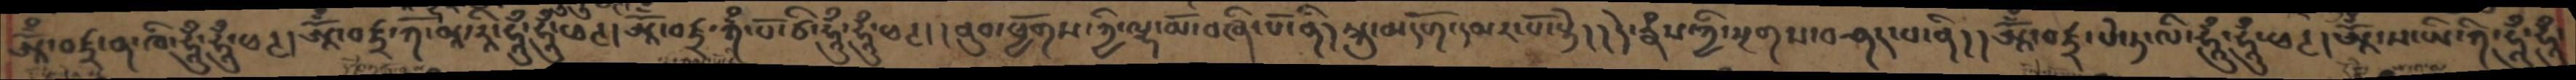ཨཱོྃ་བཛྲ་ན་ཁི་ཧཱུྃ་ཧཱུྃ་ཕཊ། ཨཱོྃ་བཛྲ་ཀོ་མཱ་རཱི་ཧཱུྃ་ཧཱུྃ་ཕཊ། ཨཱོྃ་བཛྲ་ཀྃ་པོ་ཙི་ཧཱུྃ་ཧཱུྃ་ཕཊ། །ནུབ་ཕྱོགས་ཀྱི་ལྷ་མོ་བཞི་པོ་ནི། སྐུ་མདོག་དམར་པོ་སྟེ། །དེ་རྣཾས་ཀྱི་སྔགས་བཤད་པ་ནི། །ཨཱོྃ་བཛྲ་པེ་ཏ་ལི་ཧཱུྃ་ཧཱུྃ་ཕཊ། ཨཱོྃ་ས་ཡི་ཀི་ཧཱུྃ་ཧཱུྃ་
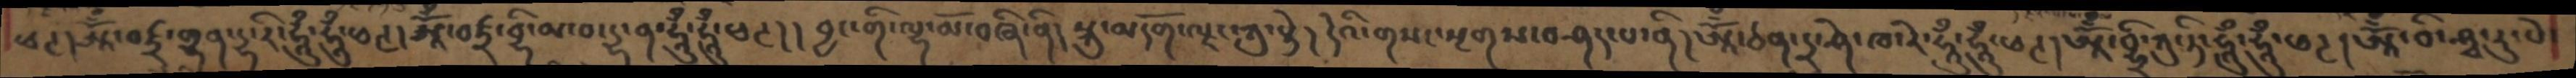ཕཊ། ཨཱོྃ་བཛྲ་གྷན་དྷ་རི་ཧཱུྃ་ཧཱུྃ་ཕཊ། ཨཱོྃ་བཛྲ་བྷི་མ་བ་དྷ་ན་ཧཱུྃ་ཧཱུྃ་ཕཊ། །བྱང་གི་ལྷ་མོ་བཞི་ནི། སྐུ་མདོག་ལྗང་ཀུ་སྟེ། དེའི་གསང་སྔགས་བཤད་པ་ནི། ཨཱོྃ་ཙན་དྲ་ཤེ་ཁ་རེ་ཧཱུྃ་ཧཱུྃ་ཕཊ། ཨཱོྃ་བྷྲི་ཀུ་ཏི་ཧཱུྃ་ཧཱུྃ་ཕཊ། ཨཱོྃ་བི་ཤྭ་རུ་པེ་
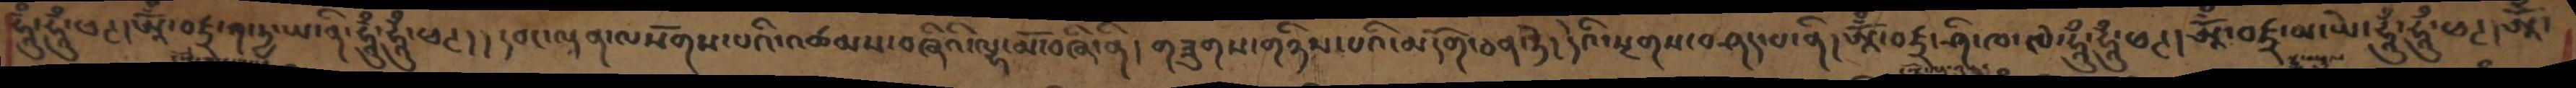ཧཱུྃ་ཧཱུྃ་ཕཊ། ཨཱོྃ་བཛྲ་ཀ་ཏྱ་ཡ་ནི་ཧཱུྃ་ཧཱུྃ་ཕཊ། །དབང་ལྡན་ལསོགས་པའི་འཚམས་བཞིའི་ལྷ་མོ་བཞི་ནི། གཟུགས་གཉིས་པའི་མདོག་ཅན་ཏེ། དེའི་སྔགས་བཤད་པ་ནི། ཨཱོྃ་བཛྲ་ཤི་ཁ་ཁེ་ཧཱུྃ་ཧཱུྃ་ཕཊ། ཨཱོྃ་བཛྲ་མ་ཡེ་ཧཱུྃ་ཧཱུྃ་ཕཊ། ཨཱོྃ་
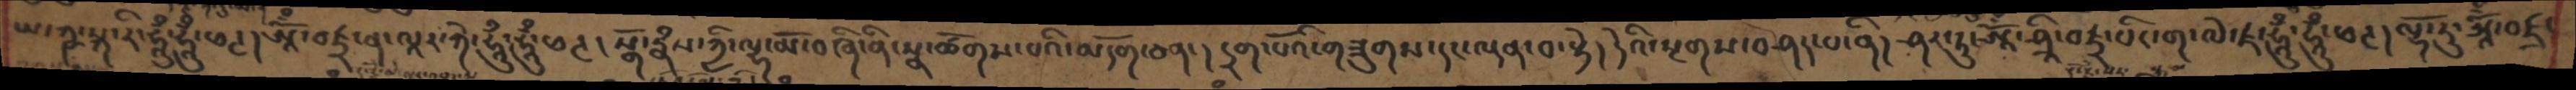ཡ་ཀྵ་སྐ་རི་ཧཱུྃ་ཧཱུྃ་ཕཊ། ཨཱོྃ་བཛྲ་ན་ལཱར་ཀེ་ཧཱུྃ་ཧཱུྃ་ཕཊ། སྒོ་རྣཾས་ཀྱི་ལྷ་མོ་བཞི་ནི་སྣ་ཚོགས་པའི་མདོག་ཅན། དྲག་པོའི་གཟུགས་དང་ལྡན་བ་སྟེ། དེའི་སྔགས་བཤད་པ་ནི། ཤར་ཏུ་ཨཱོྃ་ཤྲཱི་བཛྲ་སིང་ག་ལེ་ཛ་ཧཱུྃ་ཧཱུྃ་ཕཊ། ལྷོ་རུ་ཨཱོྃ་བཛྲ་
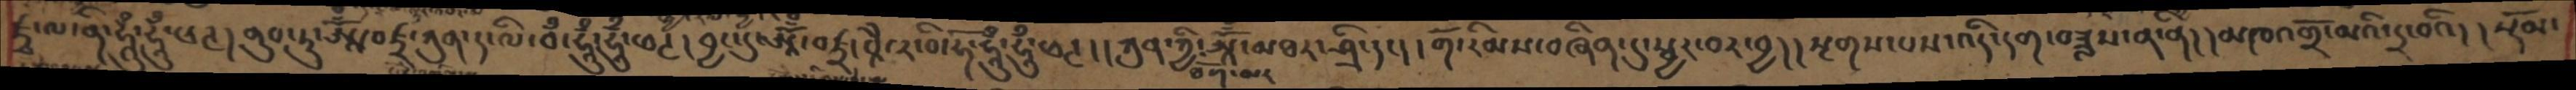ཛྭ་ལ་ནི་ཧཱུྃ་ཧཱུྃ་ཕཊ། ནུབ་ཏུ་ཨཱོྃ་བཛྲ་ཀུན་ད་ལི་བྃ་ཧཱུྃ་ཧཱུྃ་ཕཊ། བྱང་དུ་ཨཱོྃ་བཛྲ་བཱཻ་ར་བི་ཧོ་ཧཱུྃ་ཧཱུྃ་ཕཊ། ཀུན་ཀྱི་ཐོག་མ་ཨཱོྃ་མཐར་ཤྲི་དང། །གོ་རིམས་བཞིན་དུ་སྦྱར་བར་བྱ། །སྔགས་པས་འདི་དག་བཟླས་ན་ནི། །མཁའགྲོ་མའི་དྲ་བའི། །སྡོམ་
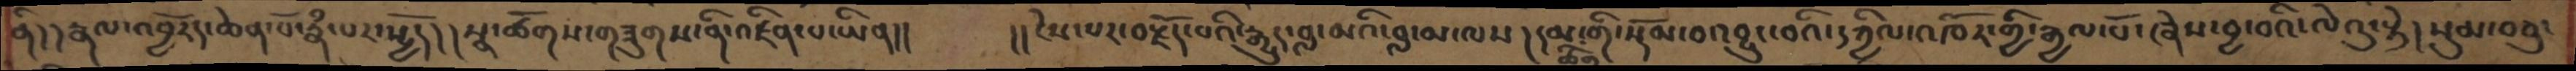ནི། །རྣལ་འབྱོརད་ཆེན་པོ་རྣཾ་པར་སྤྱོད། །སྣ་ཚོགས་གཟུགས་ནི་འཛིན་པ་ཡིན།།   །།ངེས་པར་བརྗོད་པའི་རྒྱུད་བླ་མའི་བླ་མ་ལས། དམ་ཚིག་གི་སྡོམ་བའབྱུང་བའི་དཀྱིལ་འཁོར་གྱི་རྒྱལ་པོ་ཞེས་བྱ་བའི་ལེའུ་སྟེ། སུམ་བཅུ་
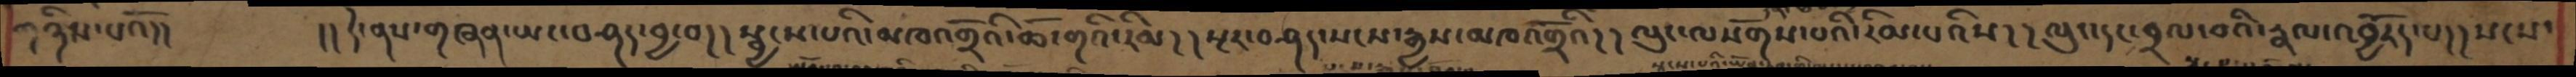གཉིས་པའོ།།   །།དེ་ནས་གཞན་ཡང་བཤད་བྱ་བ། །སྦྱངས་པའི་མཁའགྲོའི་ཆོ་གའི་རིམ། །སྔར་བཤད་སངས་རྒྱས་མཁའགྲོའི། །ལུང་ལསོགས་པའི་རིམ་པའིས། །ལུང་དང་བྲལ་བའི་རྣལ་འབྱོརད་པ། །སངས་
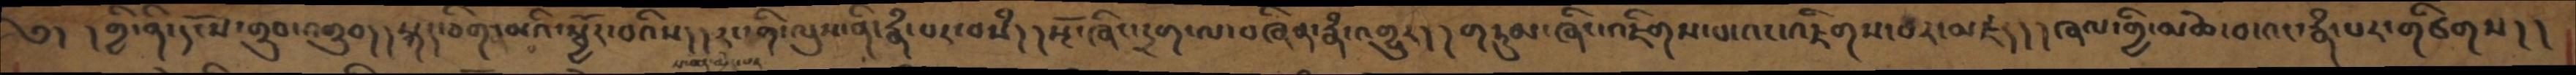༄། །གྱི་ནི་དངོས་གྲུབ་འགྲུབ། །སྐད་ཅིག་མའི་སྦྱོར་བའིས། །རང་གི་ལུས་ནི་རྣཾ་པར་བསཾ། །སྔོ་ཞིང་དྲག་ལ་བཞིན་རྣཾས་འགྱུར། །གཏུམ་ཞིང་འཇིགས་པ་འང་འཇིགས་པར་མཛད། །ཞལ་གྱི་མཆེ་བ་འང་རྣཾ་པར་གཙིགས། །
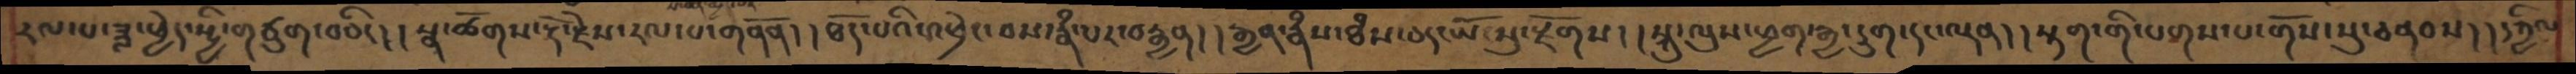རལ་པ་ཟླ་ཕྱེད་སྤྱི་གཙུག་བཅིང། །སྣ་ཚོགས་རྡོ་རྗེས་རལ་པ་གནོན། །ཐོད་པའི་འཕྲེང་བས་རྣཾ་པར་བརྒྱན། །རྒྱན་རྣཾས་ཐཾས་ཅད་ཡོངསུ་རྫོགས། །སྐུ་ལུས་ཕྱག་རྒྱ་དྲུག་དང་ལྡན། །སྟག་གི་པགས་པ་གོས་སུ་བནབས། །དཀྱིལ་
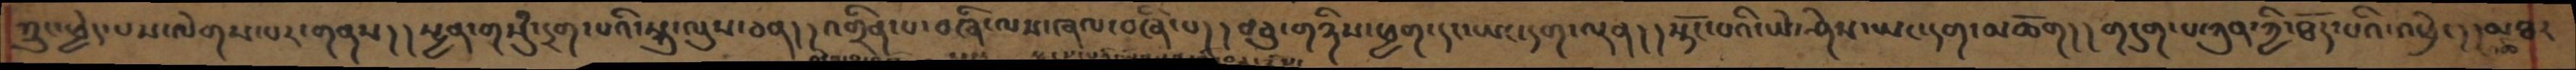ཀྲུང་ཕྱེད་པས་ལེགས་པར་གནས། །སྤྱན་གསུཾ་དྲག་པའི་སྐུ་ལུས་ཅན། །འགྲིན་པ་བཞི་ལས་ཞལ་བཞི་པ། །བཅུ་གཉིས་ཕྱག་དང་ཡང་དག་ལྡན། །སྟོང་པའི་ཡེ་ཤེས་ཡང་དག་མཆོག། །གདུག་པ་ཀུན་ཀྱི་ཐོད་པའི་འཕྲེང། །མཐར
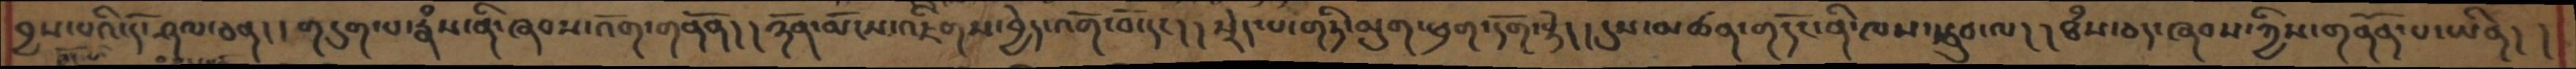བྱས་པའི་དོ་ཤལ་ཅན། །གདུག་པ་རྣཾས་ནི་ཞབས་འོག་གནོན། །ཉོན་མོངས་འཇིགས་བྱེད་འགོ་བོ་དང། །སྲེད་པ་གཏི་མུག་ཕྲག་དོག་སྟེ། །དུས་མཚན་གདོང་ནི་ཁས་སྦུབ་ལ། །ཐཾས་ཅད་ཞབས་ཀྱིས་གནོན་པ་ཡིན། །
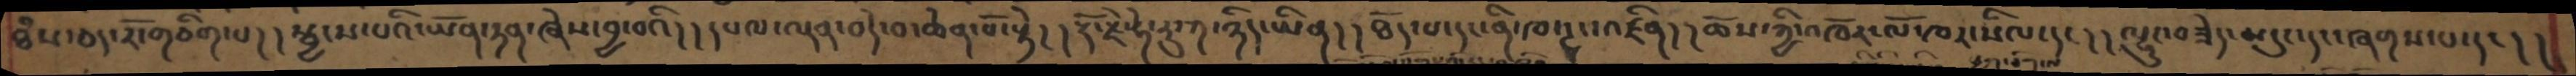ཐཾས་ཅད་རོ་གཅིག་པ། །སྦྱངས་པའི་ཡོན་ཏན་ཞེས་བྱ་བའི། །དཔལ་ལྡན་བདེ་བ་ཆེན་པོ་སྟེ། །རྡོ་རྗེ་ཧེ་རུ་ཀ་ཉིད་ཡིན། །ཐོད་པ་དང་ནི་ཁ་ཏྭང་འཛིན། །ཆོས་ཀྱི་འཁོར་ལོ་ཁར་སིལ་དང། །ལྷུང་བཟེད་མདུང་དང་ཞགས་པ་དང། །
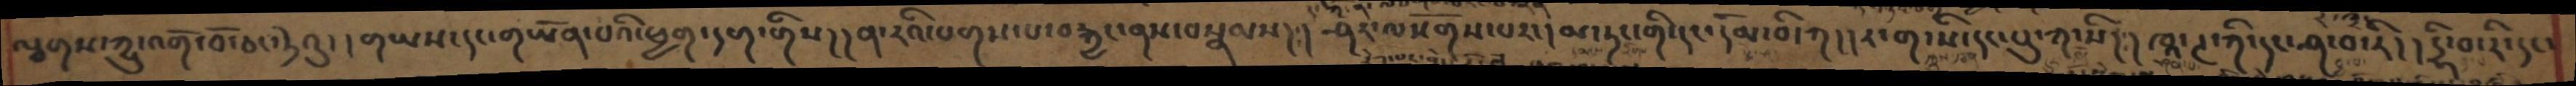ལྕགས་ཀྱུ་འགོ་བོ་ཅང་ཏེའུ། །གཡས་དང་གཡོན་པའི་ཕྱག་དག་གིས། །ན་རའི་པགས་པ་བརྐྱང་ནས་བསྣམས། །ཤར་ལསོགས་པར་།མ་ཏང་གི་དང་དོམ་བི་ཀ། །ར་ག་སི་དང་པུ་ཀ་སི། །ཁཱ་ཊ་ཀི་དང་ཤ་བ་རི། །དྷི་བ་རི་དང་
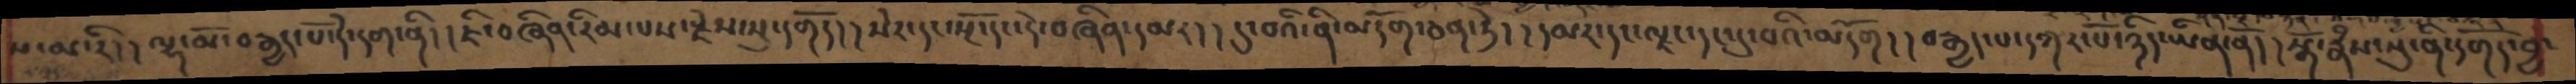ས་མ་རི། །ལྷ་མོ་བརྒྱད་པོ་དེ་དག་ནི། །ཇི་བཞིན་རིམ་པས་རྗེས་སུ་དགོད། །སེར་དང་སྔོ་དང་དེ་བཞིན་དམར། །དུ་བའི་ནི་མདོག་ཅན་ཏེ། །དམར་དང་ལྗང་དང་དུ་བའི་མདོག། །བརྒྱད་པ་དཀར་པོ་ཉིད་ཡིན་ནོ། །སྒོ་རྣཾས་སུ་ནི་དགོད་བྱ་
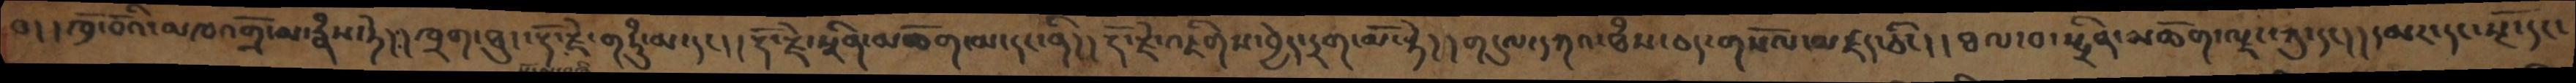བ། །ཁྲོ་བོའི་མཁའགྲོ་མ་རྣཾས་ཏེ། །ཁྲག་ཐུང་རྡོ་རྗེ་གཏུཾ་མ་དང། །རྡོ་རྗེ་སྲིན་མཆོག་མ་དང་ནི། །རྡོ་རྗེ་འཇིགས་བྱེད་དྲག་མོ་སྟེ། །གདུལ་དཀའ་ཐཾས་ཅད་གསོལ་མཛད་ཅིང། །ཐལ་བ་སྤྲིན་མཆོག་ལྗང་ཀུ་དང། །དམར་དང་སྔོ་དང
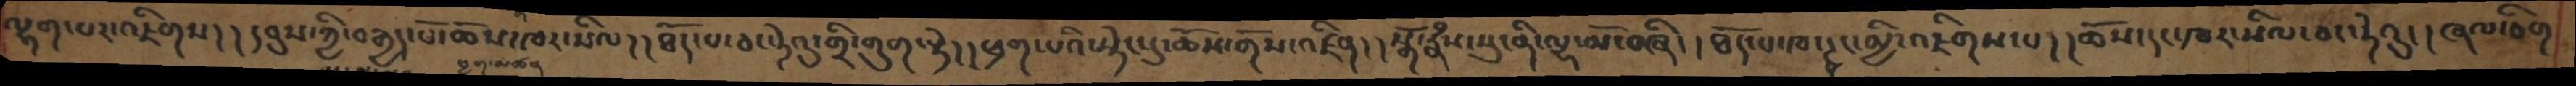ལྷག་པར་འཇིགས། །དབུས་ཀྱི་བརྒྱད་པོ་ཆོས་ཁར་སིལ། །ཐོད་པ་ཅང་ཏེའུ་གྲི་གུག་སྟེ། །ཕྲག་པའི་སྟེང་དུ་ཆོས་གོས་འཛིན། །སྒོ་རྣཾས་སུ་ནི་ལྷ་མོ་བཞི། །ཐོད་པ་ཁ་ཊྭང་མྱི་འཇིགས་པ། །ཆོས་དང་ཁར་སིལ་ཅང་ཏེའུ། །ཞལ་ཅིག
